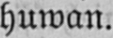huwan.
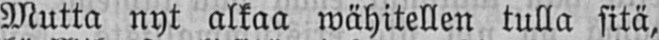Mutta nyt alkaa wähitellen tulla sitä,
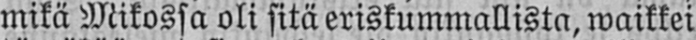mikä Mikossa oli sitä eriskummallista, waikkei
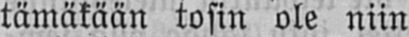tämäkään tosin ole niin eriskummallista,
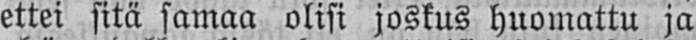ettei sitä samaa olisi joskus huomattu ja
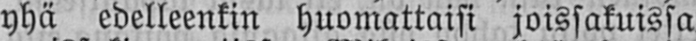yhä edelleenkin huomattaisi joissakuissa
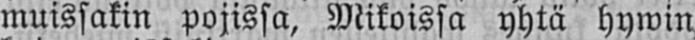muissakin pojissa, Mikoissa yhtä hywin
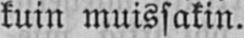kuin muissakin.
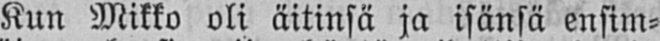Kun Mikko oli äitinsä ja isänsä ensim-
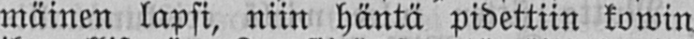mäinen lapsi, niin häntä pidettiin kowin
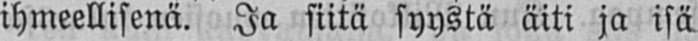ihmeellisenä. Ja siitä syystä äiti ja isä
